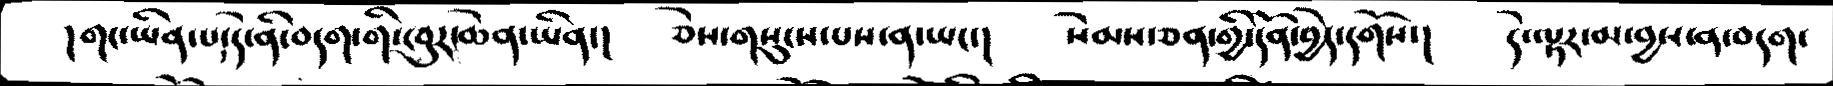།གང་ཡིན་པ་དེ་ནི་བདག་གི་ཁུར་ཆེན་ཡིན་།   ཅེས་གསུངས་པས་ན་ཡང་།  སེམས་ཅན་གྱི་དོན་བྱེད་དགོས་།   དེ་ལྟར་མ་བྱས་ན་བདག་
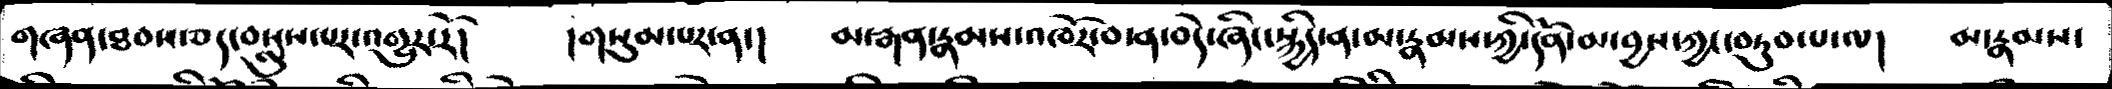གཞན་ཐམས་ཅད་བསླུས་པར་འགྱུར་རོ།   །གསུམ་པར་ན་།   མ་རྒན་རྣམས་འཁོར་བ་ན་བདེ་ཞིང་སྐྱིད་ན་མ་རྣམས་ཀྱི་དོན་མ་བྱས་ཀྱང་བཏུབ་པ་ལ།   མ་རྣམས་
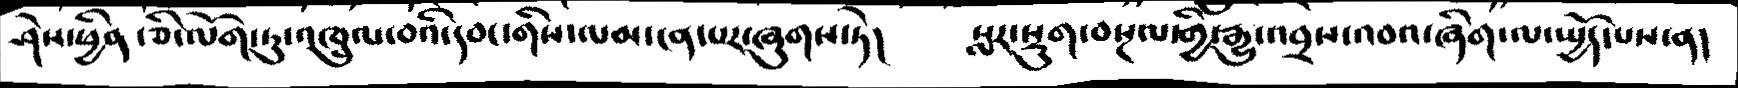ཤེས་ཕྱིན་ཅི་ལོག་ཏུ་འཁྲུལ་བའི་དབང་གིས་ལམ་ངན་པར་ཞུགས་ཏེ།   སླར་སྡུག་བསྔལ་གྱི་རྒྱུ་འབྲས་འབའ་ཞིག་ལ་སྤྱོད་པས་ན།
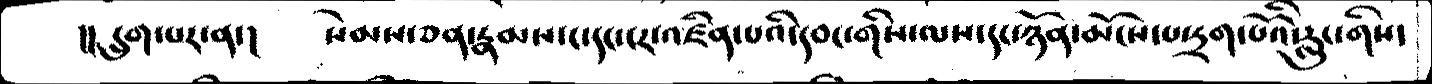།།དྲུག་པར་ན་།   དསེམས་ཅན་རྣམས་ང་དང་ངར་འཛིན་པའི་དབང་གིས་ལས་དང་ཉོན་མོངས་པ་དྲག་པོའི་རླུང་གིས་
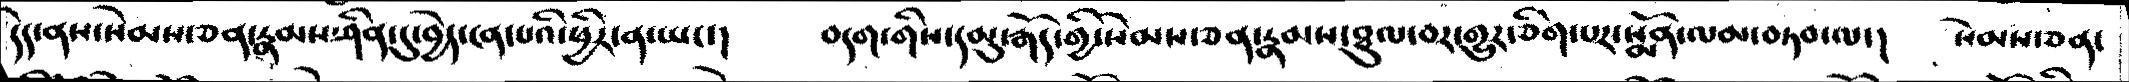དེད་ནས་སེམས་ཅན་རྣམས་ཤིན་དུ་བྱེད་ངན་པའི་ཕྱིར་ན་ཡང་།   བདག་གིས་དམུ་རྒོད་སེམས་ཅན་རྣམས་ཐུལ་བར་གྱུར་ཅིག་སྨོན་ལམ་བཏབ་ལ་།   སེམས་ཅན་
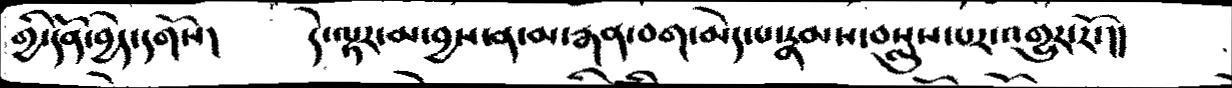གྱི་དོན་བྱེད་དགོས།    དེ་ལྟར་མ་བྱས་ན་མ་རྒན་བག་མེད་པ་རྣམས་བསླུས་པར་འགྱུར་རོ་།།
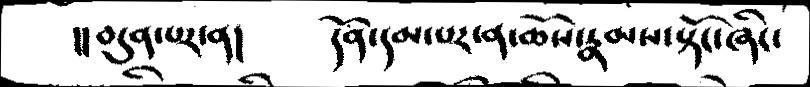།།བདུན་པར་ན།   དོན་དམ་པར་ན་ཆོས་རྣམས་སྟོང་ཞིང་
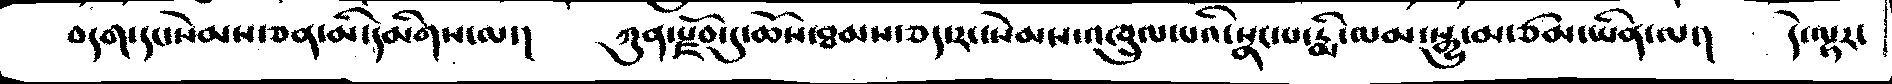བདག་དང་སེམས་ཅན་མི་དམིགས་ལ་།   ཀུན་རྫོབ་དུ་ཆོས་ཐམས་ཅད་རང་སེམས་འཁྲུལ་པའི་སྣང་པ་རྨི་ལམ་སྒྱུ་མ་ཙམ་ཡིན་ལ་།   དེ་ལྟར་
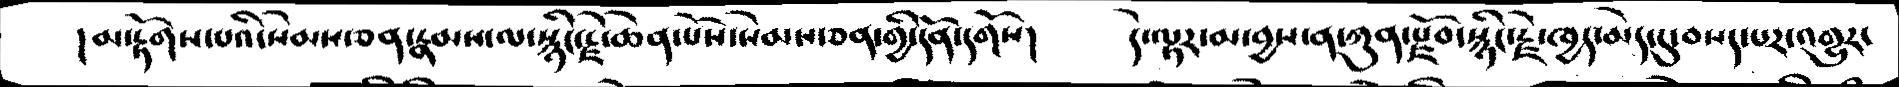།མ་རྟོགས་པའི་སེམས་ཅན་རྣམས་ལ་སྙིང་རྗེ་ཆེན་པོས་སེམས་ཅན་གྱི་དོན་དགོས།   དེ་ལྟར་མ་བྱས་ན་ཀུན་རྫོབ་སྙིང་རྗེ་ཁྱད་མེད་དུ་བསད་པར་འགྱུར་
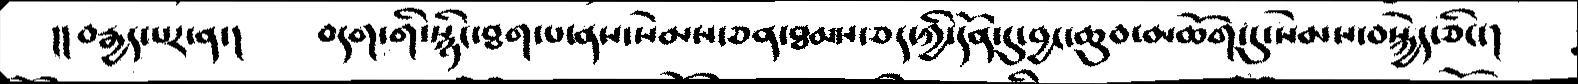།།བརྒྱད་པར་ན་།   བདག་གི་སྙིང་ཐག་པ་ནས་སེམས་ཅན་ཐམས་ཅད་ཀྱི་དོན་དུ་བྱང་ཆུབ་མཆོག་དུ་སེམས་བསྐྱེད་ཅིང་།
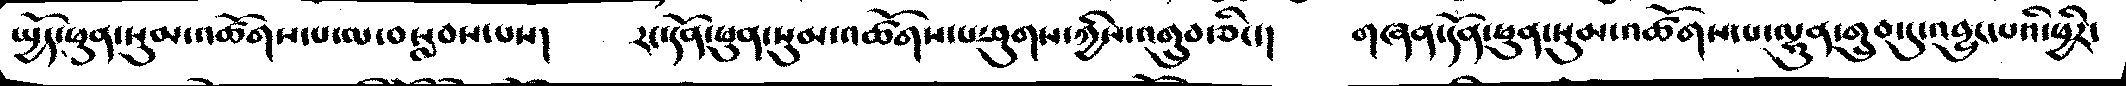སྤྱོད་ཕུན་སུམ་འཚོགས་པ་ལ་བསླབས་པས།   རང་དོན་ཕུན་སུམ་འཚོགས་པ་ཤུགས་ཀྱིས་འགྲུབ་ཅིང་།   གཞན་དོན་ཕུན་སུམ་འཚོགས་པ་ལྷུན་གྲུབ་དུ་འབྱུང་པའི་ཕྱིར་
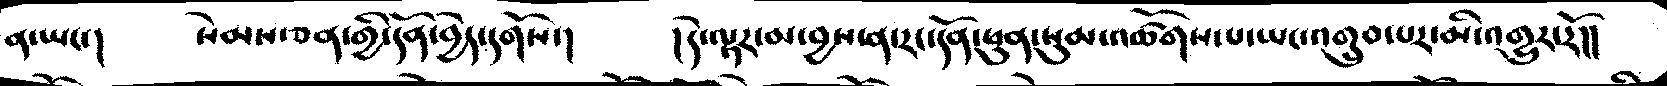ན་ཡང་།   སེམས་ཅན་གྱི་དོན་བྱེད་དགོས་།   །དེ་ལྟར་མ་བྱས་ན་རང་དོན་ཕུན་སུམ་འཚོགས་པ་ཡང་འགྲུབ་པར་མི་འགྱུར་རོ།།
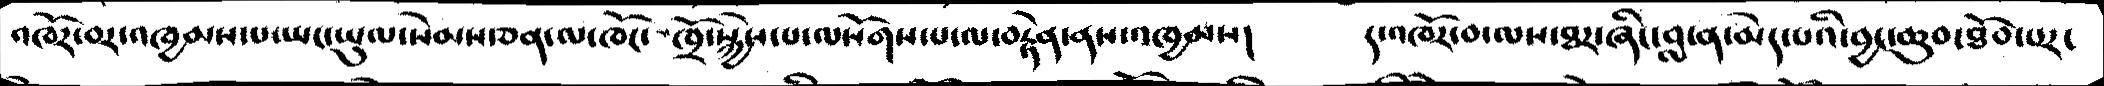འཁོར་བར་འཁྱམས་པ་ཡང་ཡུལ་སེམས་ཅན་ལ་ཁོང་ཁྲོ་སྐྱེས་པ་ལསོགས་པ་ལ་བརྟེན་ནས་འཁྱམས།   །འཁོར་བ་ལས་ཐར་ཞིང་བླ་ན་མེད་པའི་བྱང་ཆུབ་ཐོབ་པར་
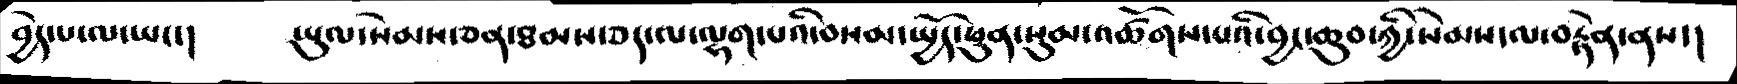བྱེད་པ་ལ་ཡང་།   ཡུལ་སེམས་ཅན་ཐམས་ཅད་ལ་ལྷག་པའི་བསམ་སྤྱོད་ཕུན་སུམ་འཚོགས་པའི་བྱང་ཆུབ་ཀྱི་སེམས་ལ་བརྟེན་ནས་།
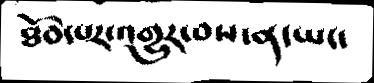ཐོབ་པར་འགྱུར་བས་ན་ཡང་
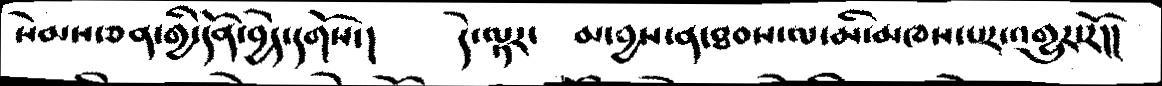སེམས་ཅན་གྱི་དོན་བྱེད་དགོས།   དེ་ལྟར་  མ་བྱས་ན་ཐབས་ལ་མི་མཁས་པར་འགྱུར་རོ།།
